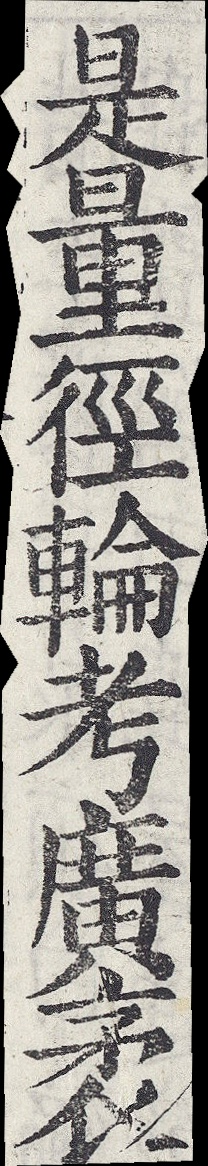是量徑輪考廣袤
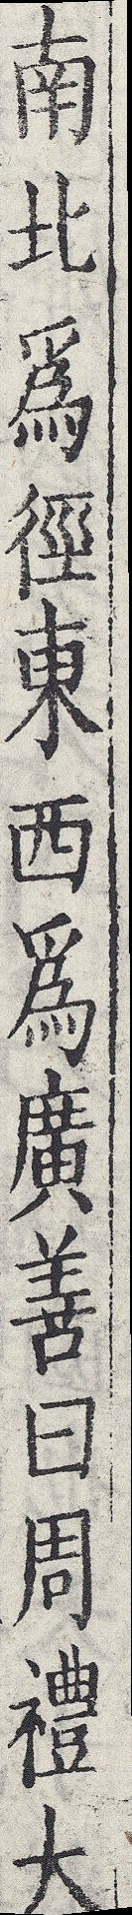南北為徑東西為廣善曰周禮大
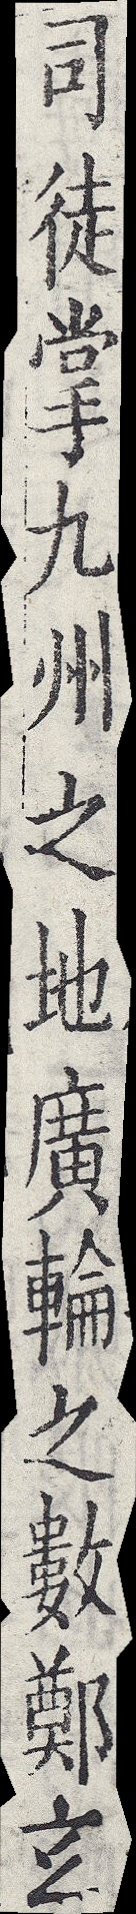司徒掌九州之地廣輪之數鄭玄
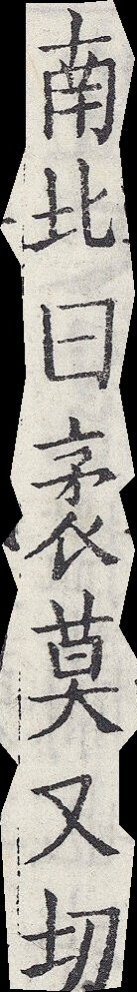南北曰袤莫又切
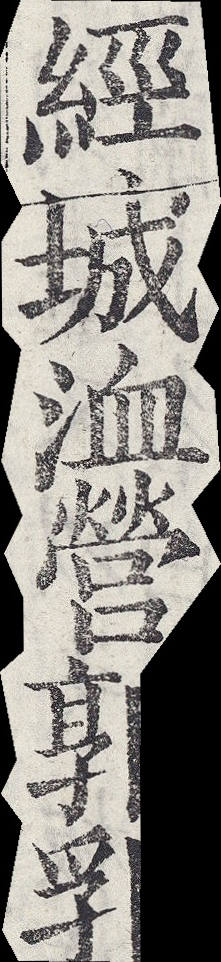經城洫營郭郛
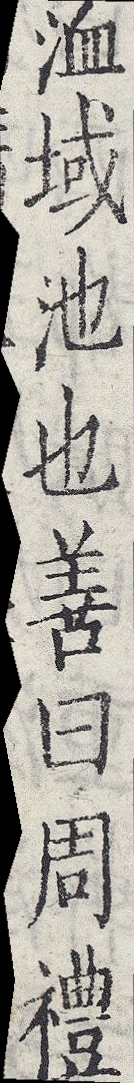洫域池也善曰周禮
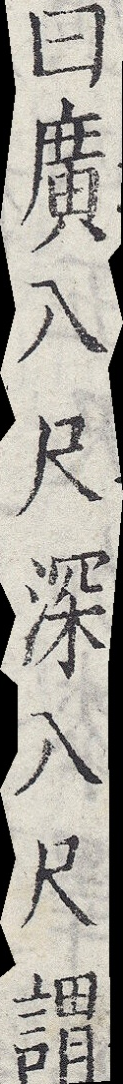曰廣八尺深八尺謂
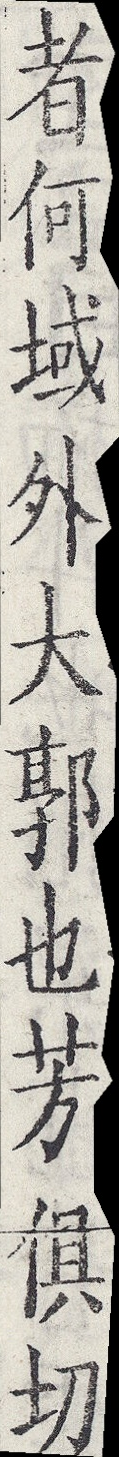者何域外大郭也芳俱切
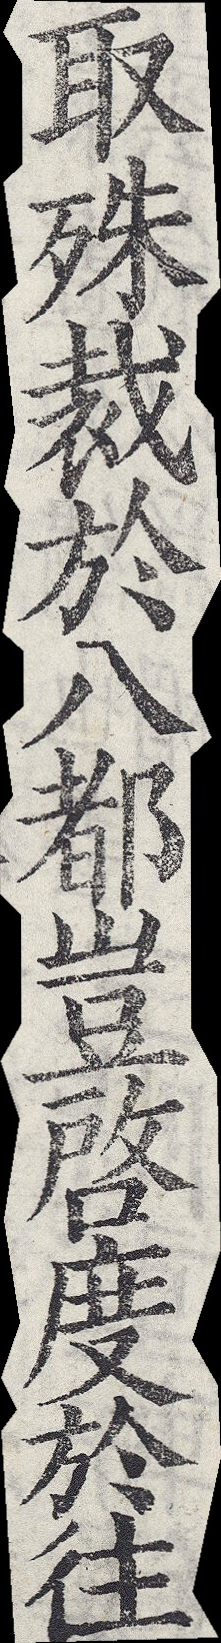取殊裁於八都豈啓度於往
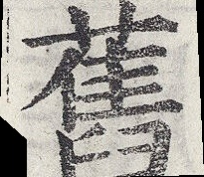舊
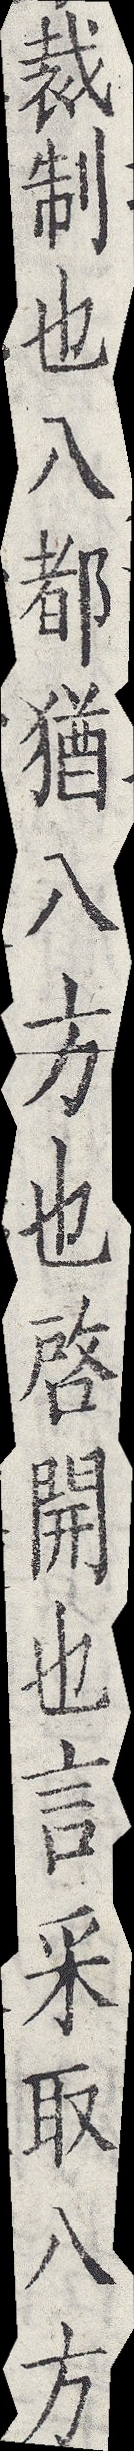裁制也八都猶八方也啓開也言采取八方
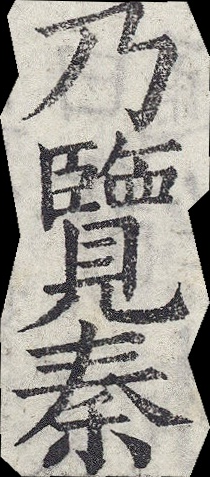乃覽秦
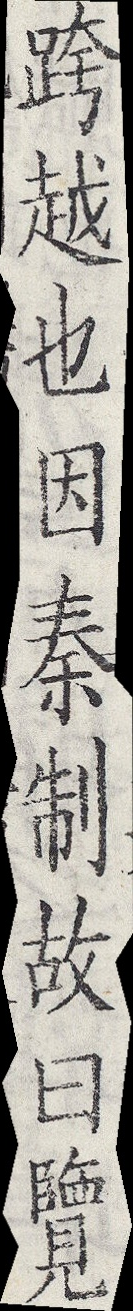跨越也因秦制故曰覽
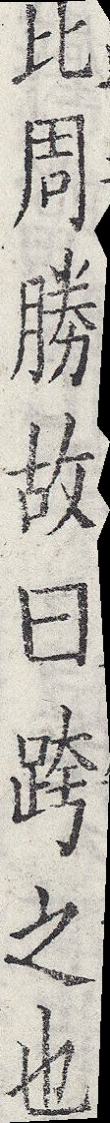比周勝故曰跨之也
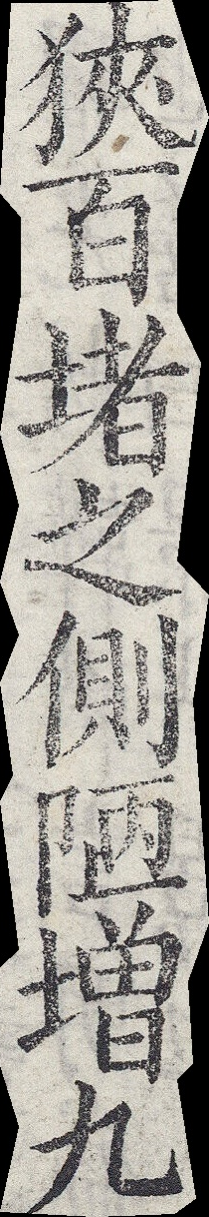狹百堵之側陋增九
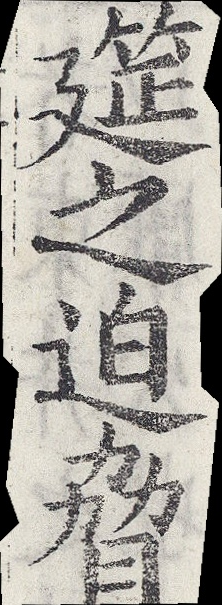筵之迫脅
